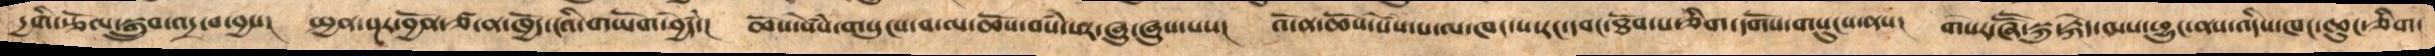དྱགི་རྩོལ་སྒྲུབ་འདྲ་བ་བྱས།  སྤྱན་སྔར་བྱོན་ཙ་ན་ཁྱོད་ངའི་གཡོག་བྱེདཾ་།   ཆོས་སེསཾ་གསུངས་བ་ལ་ཆོས་བསཾ་པར་ཞུ་ཞུས་པས།   འོ་ན་ཆོས་སེསཾ་པ་ལ་ཁང་པ་རང་དབང་ཐོབ་པ་ཅིག་དགོས་གསུངས་ནས།   གསར་ཞཽ་སྐུ་རྐེད་ལས་ཕྱུང་ནས་འདིས་ཁང་ཆུང་ཅིག་
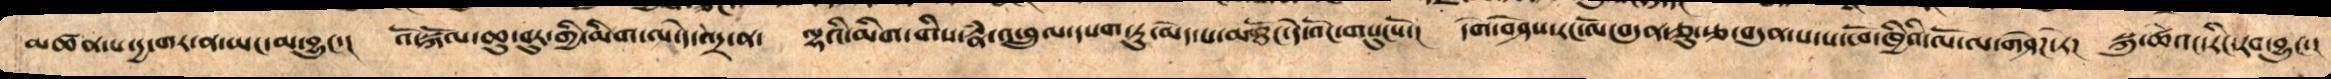མཚན་པ་དྱ་གར་ན་ཡང་མ་བྱུང་།   འོ་སྐོལ་ཆུ་བུར་གྱི་མིག་ལ་དེ་འདྲ་ན།   ལྷའི་མིག་གིས་རྣཾ་འཕྲུལ་དཔག་ཏུ་མེད་པ་མཐོང་དེ་འོང་གསུངསོ་།   དགེ་བཤེས་རང་ལོ་བདུན་ཅུ་རྩ་བདུན་པ་ས་ཕོ་ཁྱིའི་ལོ་ལ་གཤེཌ་ཏེ།   སྐུ་ཚེའང་རིང་རབ་བྱུང་།
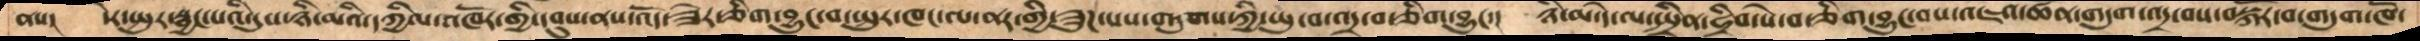ནས།   དེར་སྤུར་སྦྱང་པའི་དུས་ཉི་མའི་དཀྱིལ་འཁོར་གྱི་དབུས་ནས་འོད་ཟེར་ཅིག་བྱུང་བ་སྤུར་ཁང་ལ་ནར་གྱིས་ཟུཌ་པསགདུགས་ཀྱི་ཡུ་བ་འདྲ་བ་ཅིག་བྱུང་།  ཉི་མ་དེ་ལ་སྤྲིན་ཧྲིབ་སེ་བ་ཅིག་བྱུང་བས་འཇའ་ཚོན་གདུགས་འདྲ་བས་བསྐོར་བ་གདུག་ཁོ་
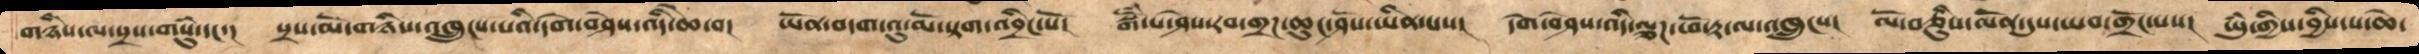གཉིས་ལ་སྲས་གསུཾ་དང་།   སྲས་མོ་གཉིས་འཁྲུངས་པའི་དགེ་བཤེས་འདི་ཆེ་བ།   ཡོན་བདག་འུ་མོ་སྟག་འབྲིང་སོ།   སྒོཾ་པ་ཤེས་རབ་གྲཌ་ཆུང་ཤོས་ཡིན་པས།   དགེ་བཤེས་འདི་ལྕཌ་ཕོ་རྟ་ལ་འཁྲུངས།   ལོ་བཅིུས་ལོན་དུས་ཡབ་གྲོང་པས།   ཡུཾ་གྱིས་བྱིས་པ་ཆེ་
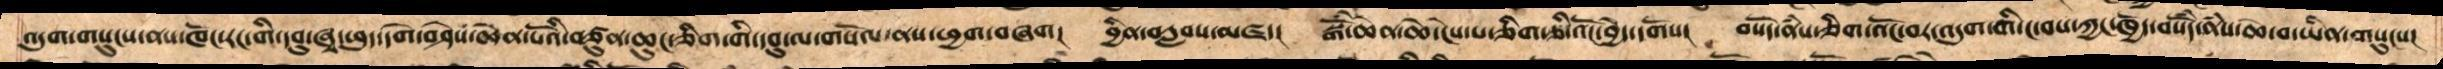འདུག་གསུངས་ནས་ཁོང་རང་གི་དབུ་ཞྭ་ཕུད་དགེ་བཤེས་ཆེན་པོའི་བཙུན་ཆུང་གི་དབུ་ལ་གསོལ་ནས་ཕྱག་བཞག།  བྱིན་བརླབས་མཛད།   སྒོཾ་ཆེན་ཆེ་ངེས་པ་ཅིག་ཅི་འོང་བྱེད་དགོས།   བསོད་ནཾས་ཅིག་འོང་བར་འདུག་གི་ང་བས་ཀྱང་ཁྱོད་བསོད་ནཾས་ཆེ་བ་ཡིན་གསུངས།
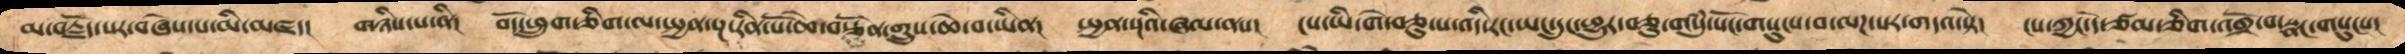མ་བརྗོད་པར་བཞེས་པ་མི་མཛད།  གཉིས་པ་ནི།   བོད་ཕྲུག་ཅིག་ལ་སྤྱན་སྔ་རིན་པོ་ཆེ་བརྩོན་གྲུས་ཆེ་བ་ཡིན།   སྤྱན་སྔའི་ཞལ་ནས།   ངས་ཡི་གེ་བཅུ་པ་འདི་རང་ཡང་དུང་ཕྱུར་བཅུ་གསུཾ་སོང་གསུངས་བ་ལཌ་པར་གདའ་སྟེ།   ངས་ཀྱང་དེ་ཙམ་ཅིག་འགྲོ་བ་སྣང་གསུངས།
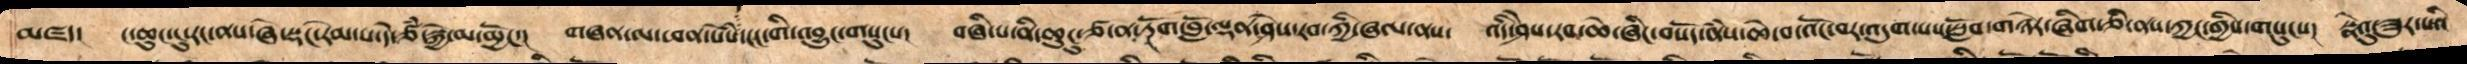མཛད།    ང་ཆུང་ངུ་རང་ནས་ཞེ་སྡང་རེམ་པ་དེ་ཙཾ་སྐྱེ་མ་མྱོང།   གཞན་ལ་ཕན་སེཾས་ངང་གི་འབྱུང་གསུངས།    བཞི་པ་ནི་ཆུངུ་ཙ་ན་རྔོག་བློ་ལྡན་ཤེས་རབ་ཀྱི་ཞལ་ནས།   འདི་ཤེས་རབ་ཆེ་ཞིང་བསོད་ནཾས་ཆེ་བ་འོང་བར་འདུག་པས་སློབ་གཉེར་ཞིག་ཅི་ནས་ཀྱང་གྱིས་གསུངས།   སྣེའུ་ཟུར་པའི
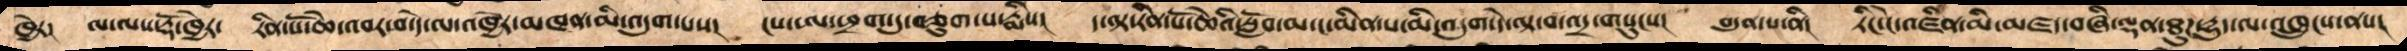ཁྱེར།  ལ་ལས་རྡོ་ཁྱེར།  རིན་པོ་ཆེ་འབར་བ་དེ་ལ་འཁྱེར་མཁན་མི་འདུག་པས།  ངས་ཨ་ཕྲག་དུ་བཅུག་པ་རྨིས།  ད་ལྟ་རིན་པོ་ཆེའི་སློབ་མ་ང་མིན་པ་མི་འདུག་དེ་ལྟ་བ་འདྲ་གསུངས།   བདུན་པ་ནི།  ཏིང་ངེ་འཛིན་མི་མཛད་བཞི་ལྡན་ཐུཌ་དྱུད་ལ་འཁྲུངས་ནས།
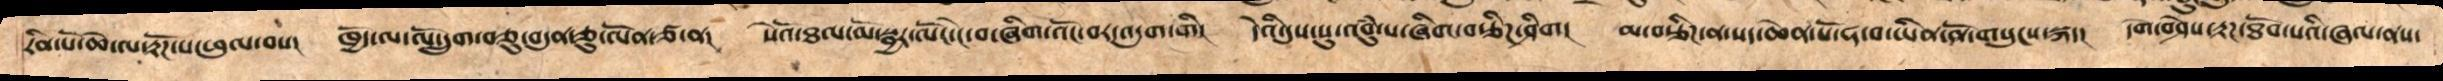རིན་པོ་ཆེ་ལ་རྟོཌ་པ་ཕུལ་བས།   ཁྱོད་ལ་ལོ་དྲུག་བཅུ་བདུན་ཅུ་ལོན་ཙ་ན།   སེའོ་ཐལ་མོ་སྦྱར་ལོང་ངེ་བ་ཞིག་འོང་བར་འདུག་གི།   དེའི་དུས་སུ་འབུཾ་པ་ཞིག་རྩིཌ་ཤིག།  མ་བརྩིཌ་ན་སད་ཆེན་པོ་ཧ་བ་ཡིན་ནོ་གསུངས་སྐད།   དགེ་བཤེས་རྟཌ་ཐོབ་པའི་ཞལ་ནས་
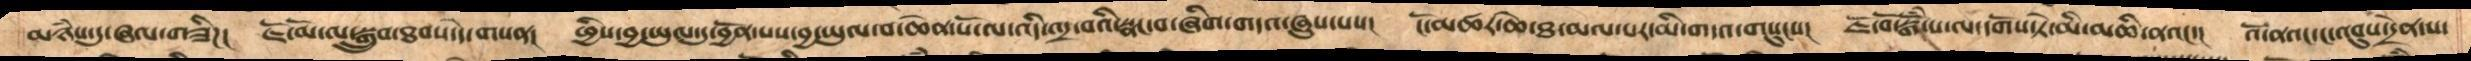མཉཾས་དུ་ཞལ་གཟིཌ།  ཇོ་མོ་ལ་སྒྲུབ་ཐབས་དེ་གསན།  ཕྱིས་བྱ་ཡུལ་དུ་བྱོན་པས་བྱ་ཡུལ་བ་ཆེན་པོ་ལ་འདི་འདྲ་བའི་སྣང་བ་ཞིག་གདའ་ཞུས་པས།   ངོ་མཚར་ཆེ་ཐ་མལ་པར་མི་གདའ་གསུངས།   ཇོ་བོ་སྒོཾ་པ་ལ་དགོས་ཏེ་མི་མཆི་ནའང་།   འོ་ནའང་ང་འབུས་དྲེན་ས་
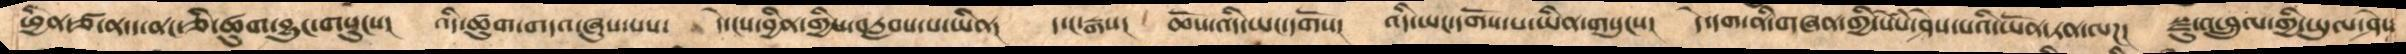ཕྱིན་ཙ་ན་ད་ནང་ཅི་ཚུག་བྱུང་གསུངས།   འདི་ཚུག་གདའ་ཞུས་པས།   དེ་ངས་བྱིན་གྱིས་བརླབས་པ་ཡིན།   ད་ང་རྒས།   ཆོས་འདི་ཡང་དགོས།   འདི་ཡང་དགོས་པ་ཡིན་གསུངས།   དེ་དག་ནི་གཞན་གྱི་སེཾས་ཤེས་པའི་ཡོན་ཏན་ལཌ།  སྫུ་འཕྲུལ་གྱི་ཡུལ་ཤེས
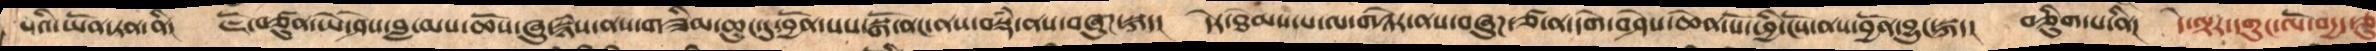པའི་ཡོན་ཏན་ནི།   ཇོ་བཙུན་ཡེ་ཤེས་བླ་མས་ཆོས་ཞུ་སྙཾ་ནས་གཟིམ་ཆུང་དུ་བྱོན་པས་སྒོ་ནང་ནས་བསྡཾ་ནས་བཞུཌ་སྐད།  དེར་ཐེམས་པ་ལ་གཉེར་ནས་བཞུཌ་ཙ་ན་དགེ་བཤེས་ཆེན་པོ་ཕྱི་ངོས་ནས་བྱོན་བྱུང་སྐད།   བཅིུག་པ་ནི།   དེ་ལྟར་དགུང་ལོ་བདྱད་ཅུ
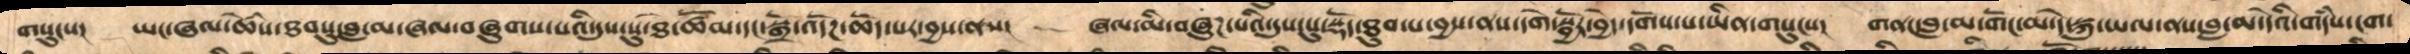གསུངས།   ཡང་ཞལ་ཆེཾས་ཐབསུ་བླ་མ་ཞལ་བཞུགས་པའི་དུས་སུ་ཐེ་ཚོམ་དང་སྒྲོ་འདོཌ་ཆོད་པར་བྱས་ནས།    ཞལ་མི་བཞུཌ་པའི་དུས་སུ་སྡོད་ཐུབ་པ་བྱས་ནས་དགེ་སྦྱོར་བྱེད་དགོས་པ་ཡིན་གསུངས།   གནང་བླ་མ་གོང་མ་དེ་སྐུ་ཡལ་ནས་བླ་མ་དེའི་གདཾས་ངག་
